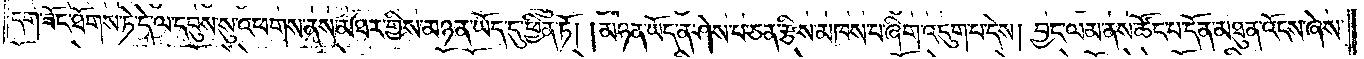དག་ཟོང་ཐོགས་ཏེ་དེ་ལ་དབུས་སུ་འཕགས་ནས་མཐར་གྱིས་མཉན་ཡོད་དུ་ཕྱིན་ཏོ། །མཉན་ཡོད་ན་ཤེས་པ་ཅན་རྩིས་མཁས་པ་ཞིག་འདུག་པ་དེས། བྱང་ལམ་ནས་ཚོང་པ་དོན་མཐུན་འོངས་ཞེས་
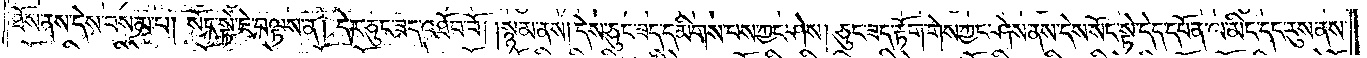ཐོས་ནས་དེས་བསམ་པ། སོང་སྟེ་ཇེ་བལྟས་ན། དེར་ཅུང་ཟད་འཐོབ་བོ། །སྙམ་ནས། དེས་ཅུང་ཟད་དམིགས་པས་ཀྱང་ཤེས། ཅུང་ཟད་རྟོག་གེས་ཀྱང་ཤེས་ནས་དེས་སོང་སྟེ་དེད་དཔོན་ལ་མིང་དང་རུས་ནས་
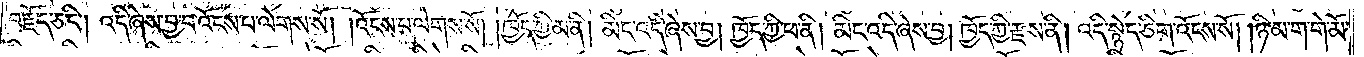བརྗོད་ཅིང༌། འདི་ཞེས་བྱ་བ་འོངས་པ་ལེགས་སོ། །འོངས་པ་ལེགས་སོ། །ཁྱོད་ཀྱི་མ་ནི། མིང་འདི་ཞེས་བྱ། ཁྱོད་ཀྱི་ཕ་ནི། མིང་འདི་ཞེས་བྱ། ཁྱོད་ཀྱི་རྫས་ནི། འདི་སྙེད་ཅིག་འོངས་སོ། །ཉི་མ་ག་གེ་མོ་
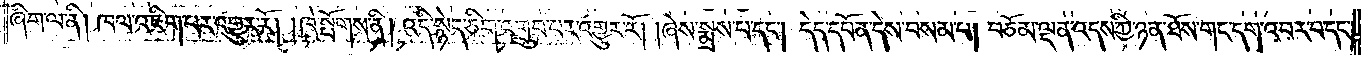ཞིག་ལ་ནི། ཁལ་འཇིག་པར་འགྱུར་རོ། །ཁེ་སྤོགས་ནི། འདི་སྙེད་ཅིག་འགྲུབ་པར་འགྱུར་རོ། །ཞེས་སྨྲས་པ་དང༌། དེད་དཔོན་དེས་བསམ་པ། བཅོམ་ལྡན་འདས་ཀྱི་ཉན་ཐོས་གང་དག་འབར་བ་དང༌།
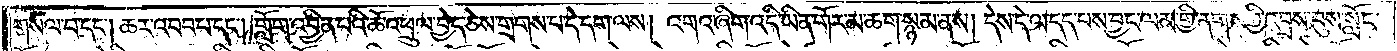གསལ་བ་དང༌། ཆར་འབབ་པ་དང༌། གློག་འབྱིན་པའི་ཆོ་འཕྲུལ་བྱེད་ཅེས་གྲགས་པ་དེ་དག་ལས། འགའ་ཞིག་འདི་ཡིན་གོར་མ་ཆག་སྙམ་ནས། དེས་དེ་ལ་དད་པས་བྱང་ལམ་གྱི་ནགས་ཀྱི་འབྲས་བུས་སློང་
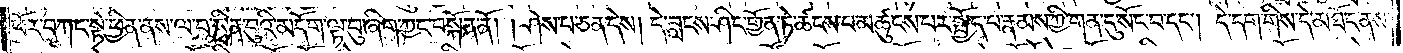ཕོར་བཀང་སྟེ་ཕྱིན་ནས་ལ་བ་སྲིན་བུའི་མདོག་ལྟ་བུ་ཞིག་ཀྱང་བསྐོན་ནོ། །ཤེས་པ་ཅན་དེས། དེ་བླངས་ཤིང་གྱོན་ཏེ་ཚངས་པ་མཚུངས་པར་སྤྱོད་པ་རྣམས་ཀྱི་གན་དུ་སོང་བ་དང༌། དེ་དག་གིས་དེ་མཐོང་ནས་
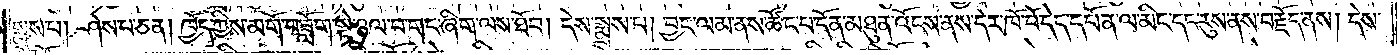སྨྲས་པ། ཤེས་པ་ཅན། ཁྱོད་ཀྱིས་མགོ་བཟློག་སྟེ་ཉལ་བ་གང་ཞིག་ལས་ཐོབ། དེས་སྨྲས་པ། བྱང་ལམ་ནས་ཚོང་པ་དོན་མཐུན་འོངས་ནས་དེར་ཁོ་བོ་དེད་དཔོན་ལ་མིང་དང་རུས་ནས་བརྗོད་ནས། དེས་
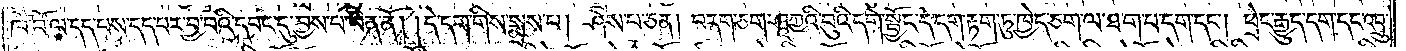ཁོ་བོ་ལ་དད་པས་དད་པར་བྱ་བའི་དབང་དུ་བྱས་པ་ཡིན་ནོ། །དེ་དག་གིས་སྨྲས་པ། ཤེས་པ་ཅན། བདག་ཅག་ཤཱཀྱའི་བུའི་དགེ་སྦྱོང་དེ་དག་རྟག་ཏུ་ཁྱེད་ཅག་ལ་ཐ་ག་པ་དག་དང༌། ཕྲེང་རྒྱུད་དག་དང་འབྲུ་
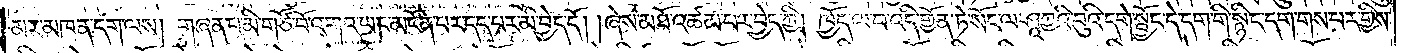མར་མཁན་དག་ལས། གཞན་པ་མི་གཙོ་བོ་འགའ་ཡང་མངོན་པར་དད་པར་མི་བྱེད་དོ། །ཞེས་མཐོ་འཚམ་པར་བྱེད་ཀྱི། ཁྱོད་ལ་བ་འདི་གྱོན་ཏེ་སོང་ལ་ཤཱཀྱའི་བུའི་དགེ་སྦྱོང་དེ་དག་གི་སྙིང་དག་གས་པར་གྱིས་
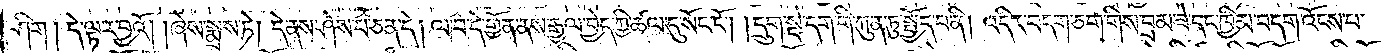ཤིག །དེ་ལྟར་བྱའོ། །ཞེས་སྨྲས་ཏེ། དེ་ནས་ཤེས་པ་ཅན་དེ། ལ་བ་དེ་གྱོན་ནས་རྒྱལ་བྱེད་ཀྱི་ཚལ་དུ་སོང་ངོ༌། །དྲུག་སྡེ་དག་གི་ཀུན་ཏུ་སྤྱོད་པ་ནི། འདིར་བདག་ཅག་གིས་བྲམ་ཟེ་དང་ཁྱིམ་བདག་འོངས་པ་
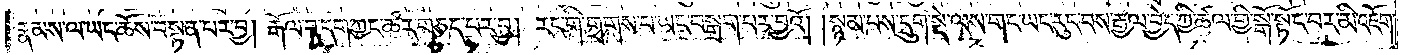རྣམས་ལ་ཡང་ཆོས་བསྟན་པར་བྱ། རྒོལ་བ་དག་ཀྱང་ཚར་གཅད་པར་བྱ། རང་གི་གྲགས་པ་ཡང་བསྒྲག་པར་བྱའོ། །སྙམ་པས་དྲུག་སྡེ་ལས་གང་ཡང་རུང་བས་རྒྱལ་བྱེད་ཀྱི་ཚལ་གྱི་སྒོ་སྟོང་བར་མི་འཇོག་
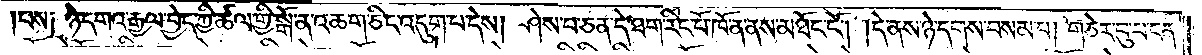པས༑ ཉེ་དགའ་རྒྱལ་བྱེད་ཀྱི་ཚལ་གྱི་སྒོ་ན་འཆག་ཅིང་འདུག་པ་དེས། ཤེས་པ་ཅན་དེ་ཐག་རིང་པོ་ཁོ་ན་ནས་མཐོང་ངོ༌། །དེ་ནས་ཉེ་དགས་བསམ་པ། གཅེར་བུ་པ་ངན་
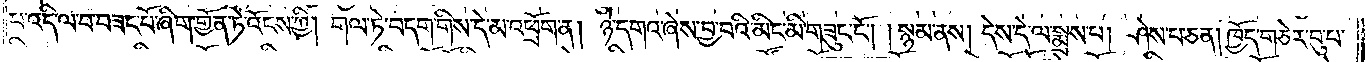པ་འདི་ལ་བ་བཟང་པོ་ཞིག་གྱོན་ཏེ་འོངས་ཀྱི། གལ་ཏེ་བདག་གིས་དེ་མ་འཕྲོག་ན། ཉེ་དགའ་ཞེས་བྱ་བའི་མིང་མི་གཟུང་ངོ༌། །སྙམ་ནས། དེས་དེ་ལ་སྨྲས་པ། ཤེས་པ་ཅན། ཁྱོད་གཅེར་བུ་པ་
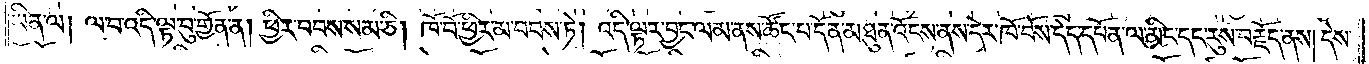ཡིན་ལ། ལ་བ་འདི་ལྟ་བུ་གྱོན་ན། ཕྱིར་བབས་སམ་ཅི། ཁོ་བོ་ཕྱིར་མ་བབས་ཏེ། འདི་ལྟར་བྱང་ལམ་ནས་ཚོང་པ་དོན་མཐུན་འོངས་ནས་དེར་ཁོ་བོས་དེད་དཔོན་ལ་མིང་དང་རུས་བརྗོད་ནས། དེས་
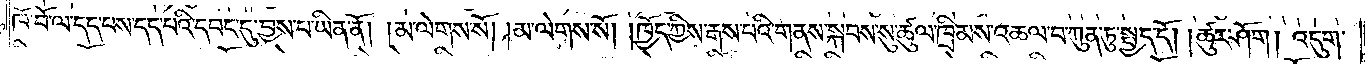ཁོ་བོ་ལ་དད་པས་དད་པའི་དབང་དུ་བྱས་པ་ཡིན་ནོ། །མ་ལེགས་སོ། །མ་ལེགས་སོ། །ཁྱོད་ཀྱིས་རྒས་པའི་གནས་སྐབས་སུ་ཚུལ་ཁྲིམས་འཆལ་བ་ཀུན་ཏུ་སྤྱད་དོ། །ཚུར་ཤོག། འདུག་
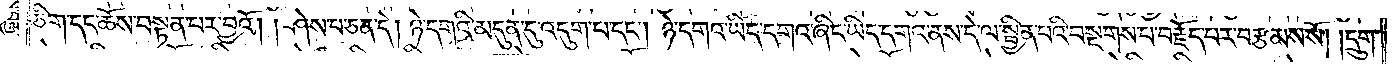ཅིག་དང་ཆོས་བསྟན་པར་བྱའོ། །ཤེས་པ་ཅན་དེ། ཉེ་དགའི་མདུན་དུ་འདུག་པ་དང༌། ཉེ་དགའ་ཡིད་དགའ་ཞིང་ཡིད་དགའ་ནས་དེ་ལ་སྦྱིན་པའི་བསྔགས་པ་བརྗོད་པར་བརྩམས་སོ། །དྲུག་
